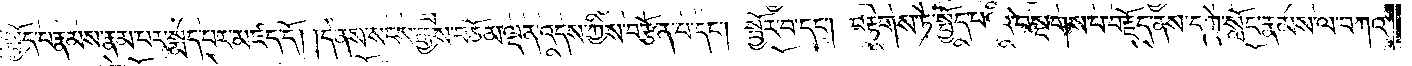སྤྱོད་པ་རྣམས་རྣམ་པར་སྨད་པར་མཛད་དོ། །དེ་ནས་སངས་རྒྱས་བཅོམ་ལྡན་འདས་ཀྱིས་བརྩོན་པ་དང༌། སྦྱོར་བ་དང༌། བརྟགས་ཏེ་སྤྱོད་པའི་བསྔགས་པ་བརྗོད་ནས་དགེ་སློང་རྣམས་ལ་བཀའ་
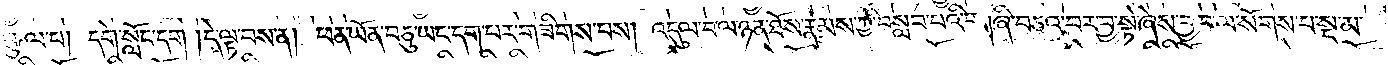སྩལ་པ། དགེ་སློང་དག །དེ་ལྟ་བས་ན། ཕན་ཡོན་བཅུ་ཡང་དག་པར་གཟིགས་པས། འདུལ་བ་ལ་ཉན་ཐོས་རྣམས་ཀྱི་བསླབ་པའི་གཞི་བཅའ་བར་བྱ་སྟེ་ཞེས་བྱ་བ་ལ་སོགས་པ་སྔ་མ་
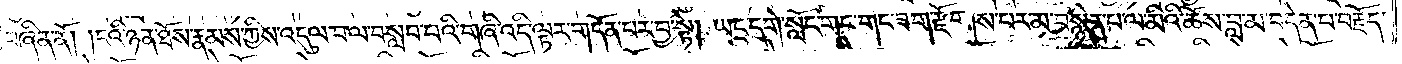བཞིན་ནོ། །ངའི་ཉན་ཐོས་རྣམས་ཀྱིས་འདུལ་བ་ལ་བསླབ་པའི་གཞི་འདི་ལྟར་གདོན་པར་བྱ་སྟེ། ཡང་དགེ་སློང་གང་གང་ཟག་རྫོགས་པར་མ་བསྙེན་པ་ལ་མིའི་ཆོས་བླ་མ་བདེན་པ་བརྗོད་
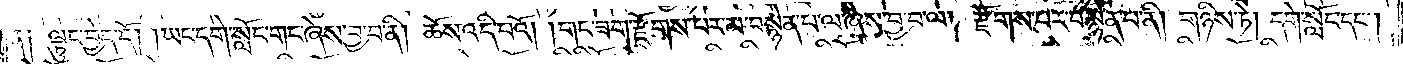ན༑ ལྟུང་བྱེད་དོ། །ཡང་དགེ་སློང་གང་ཞེས་བྱ་བ་ནི། ཆོས་འདི་པའོ། །གང་ཟག་རྫོགས་པར་མ་བསྙེན་པ་ལ་ཞེས་བྱ་བ་ལ། རྫོགས་པར་བསྙེན་པ་ནི། གཉིས་ཏེ། དགེ་སློང་དང༌།
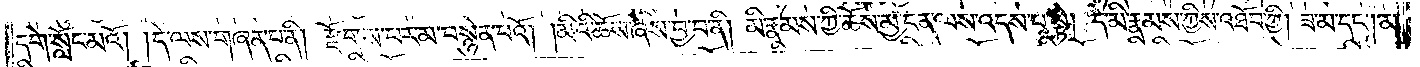དགེ་སློང་མའོ། །དེ་ལས་གཞན་པ་ནི། རྫོགས་པར་མ་བསྙེན་པའོ། །མིའི་ཆོས་ཞེས་བྱ་བ་ནི། མི་རྣམས་ཀྱི་ཆོས་མྱ་ངན་ལས་འདས་པ་སྟེ། དེ་མི་རྣམས་ཀྱིས་འཐོབ་ཀྱི། ཟ་མ་དང༌། མ་
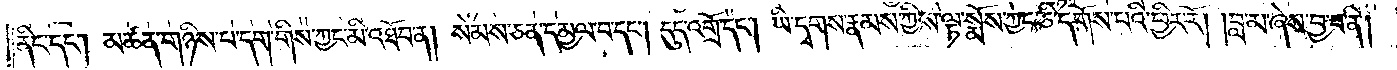ནིང་དང༌། མཚན་གཉིས་པ་དག་གིས་ཀྱང་མི་འཐོབ་ན། སེམས་ཅན་དམྱལ་བ་དང༌། དུད་འགྲོ་དང༌། ཡི་དྭགས་རྣམས་ཀྱིས་ལྟ་སྨོས་ཀྱང་ཅི་དགོས་པའི་ཕྱིར་རོ། །བླ་མ་ཞེས་བྱ་བ་ནི།
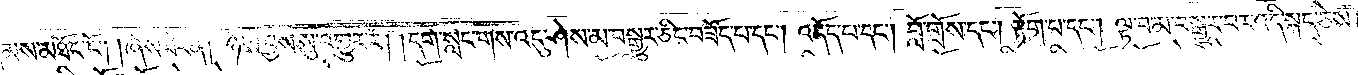མས་མཐོང་ངོ༌། །ཞེས་ཟེར་ན། ཉེས་བྱས་སུ་འགྱུར་རོ། །དགེ་སློང་གིས་འདུ་ཤེས་མ་བསྒྱུར་ཅིང་བཟོད་པ་དང༌། འདོད་པ་དང༌། བློ་གྲོས་དང༌། རྟོག་པ་དང༌། ལྟ་བ་མ་བསྒྱུར་བར་འདི་སྐད་ཅེས།
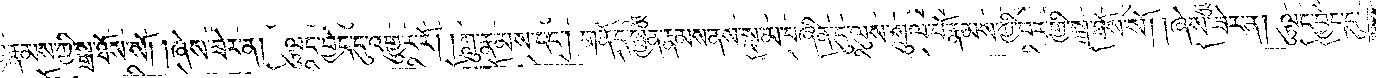ལྷ་རྣམས་ཀྱི་སྒྲ་ཐོས་སོ། །ཞེས་ཟེར་ན། ལྟུང་བྱེད་དུ་འགྱུར་རོ། །ཀླུ་རྣམས་དང༌། གནོད་སྦྱིན་རྣམས་ནས་སྔ་མ་བཞིན་དུ་ལུས་སྲུལ་པོ་རྣམས་ཀྱི་བར་གྱི་སྒྲ་ཐོས་སོ། །ཞེས་ཟེར་ན། ལྟུང་བྱེད་དུ་
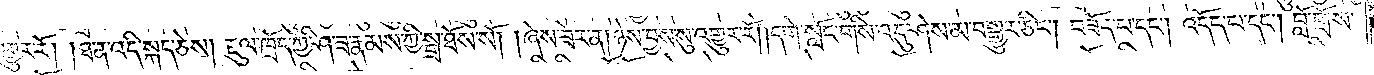འགྱུར་རོ། །ཐ་ན་འདི་སྐད་ཅེས། རྡུལ་ཁྲོད་ཀྱི་ཤ་ཟ་རྣམས་ཀྱི་སྒྲ་ཐོས་སོ། །ཞེས་ཟེར་ན། ཉེས་བྱས་སུ་འགྱུར་རོ། །དགེ་སློང་གིས་འདུ་ཤེས་མ་བསྒྱུར་ཅིང༌། བཟོད་པ་དང༌། འདོད་པ་དང༌། བློ་གྲོས་
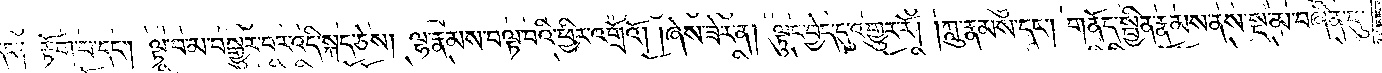དང་༑ རྟོག་པ་དང༌། ལྟ་བ་མ་བསྒྱུར་བར་འདི་སྐད་ཅེས། ལྷ་རྣམས་བལྟ་བའི་ཕྱིར་འགྲོའོ། །ཞེས་ཟེར་ན། ལྟུང་བྱེད་དུ་འགྱུར་རོ། །ཀླུ་རྣམས་དང༌། གནོད་སྦྱིན་རྣམས་ནས་སྔ་མ་བཞིན་དུ་
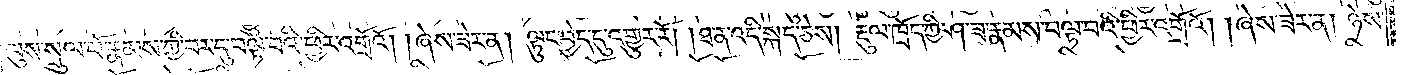ལུས་སྲུལ་པོ་རྣམས་ཀྱི་བར་དུ་བལྟ་བའི་ཕྱིར་འགྲོའོ། །ཞེས་ཟེར་ན། ལྟུང་བྱེད་དུ་འགྱུར་རོ། །ཐ་ན་འདི་སྐད་ཅེས། རྡུལ་ཁྲོད་ཀྱི་ཤ་ཟ་རྣམས་བལྟ་བའི་ཕྱིར་འགྲོའོ། །ཞེས་ཟེར་ན། ཉེས་
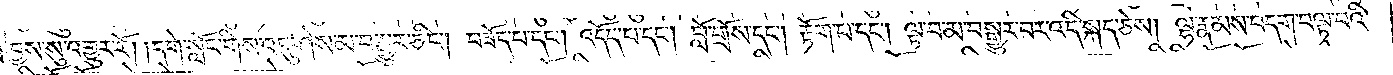བྱས་སུ་འགྱུར་རོ། །དགེ་སློང་གིས་འདུ་ཤེས་མ་བསྒྱུར་ཅིང༌། བཟོད་པ་དང༌། འདོད་པ་དང༌། བློ་གྲོས་དང༌། རྟོག་པ་དང༌། ལྟ་བ་མ་བསྒྱུར་བར་འདི་སྐད་ཅེས། ལྷ་རྣམས་བདག་བལྟ་བའི་
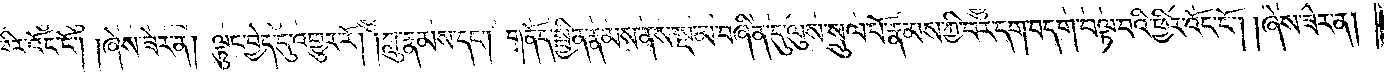ཕྱིར་འོང་ངོ༌། །ཞེས་ཟེར་ན། ལྟུང་བྱེད་དུ་འགྱུར་རོ། །ཀླུ་རྣམས་དང༌། གནོད་སྦྱིན་རྣམས་ནས་སྔ་མ་བཞིན་དུ་ལུས་སྲུལ་པོ་རྣམས་ཀྱི་བར་དག་བདག་བལྟ་བའི་ཕྱིར་འོང་ངོ༌། །ཞེས་ཟེར་ན།
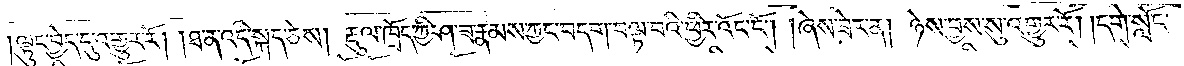ལྟུང་བྱེད་དུ་འགྱུར་རོ། །ཐ་ན་འདི་སྐད་ཅེས། རྡུལ་ཁྲོད་ཀྱི་ཤ་ཟ་རྣམས་ཀྱང་བདག་བལྟ་བའི་ཕྱིར་འོང་ངོ༌། །ཞེས་ཟེར་ན། ཉེས་བྱས་སུ་འགྱུར་རོ། །དགེ་སློང་
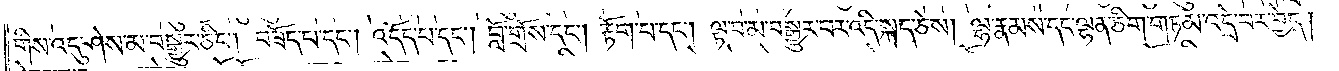གིས་འདུ་ཤེས་མ་བསྒྱུར་ཅིང༌། བཟོད་པ་དང༌། འདོད་པ་དང༌། བློ་གྲོས་དང༌། རྟོག་པ་དང༌། ལྟ་བ་མ་བསྒྱུར་བར་འདི་སྐད་ཅེས། ལྷ་རྣམས་དང་ལྷན་ཅིག་གཏམ་འདྲེ་བར་བྱེད།
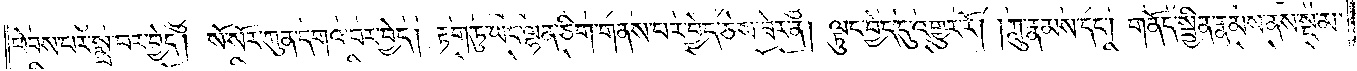ཕེབས་པར་སྨྲ་བར་བྱེད། སོ་སོར་ཀུན་དགའ་བར་བྱེད། རྟག་ཏུ་ཡང་ལྷན་ཅིག་གནས་པར་བྱེད་ཅེས་ཟེར་ན། ལྟུང་བྱེད་དུ་འགྱུར་རོ། །ཀླུ་རྣམས་དང༌། གནོད་སྦྱིན་རྣམས་ནས་སྔ་མ་
